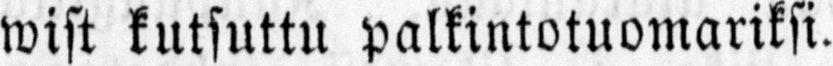wist kutsuttu palkintotuomariksi.
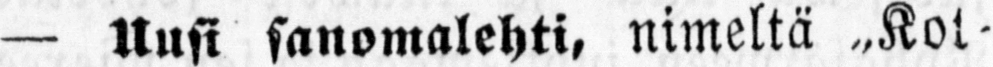— Uusi sanomalehti, nimeltä „Kot-
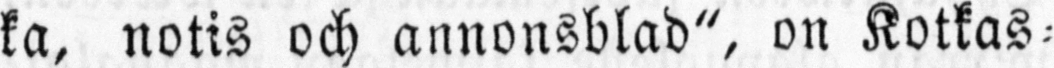ka, notis och annonsblad", on Kotkas-
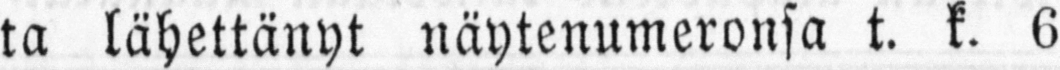ta lähettänyt näytenumeronsa t. k. 6
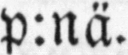p:nä.
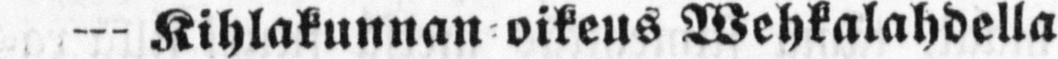— Kihlakunnan oikeus Wehkalahdella
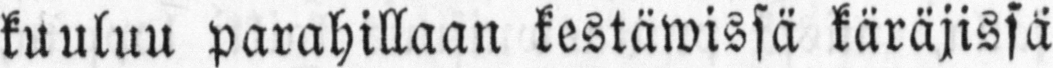kuuluu parahillaan kestäwissä käräjissä
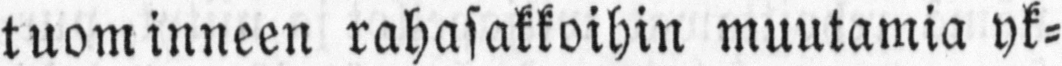tuominneen rahasakkoihin muutamia yk-
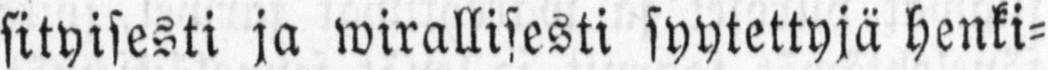sityisesti ja syytettyjä henki-
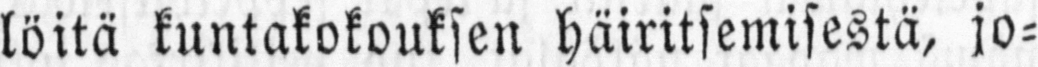löitä kuntakokouksen häiritsemisestä, jo-
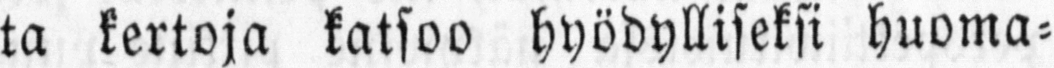ta kertoja katsoo hyödylliseksi huoma-
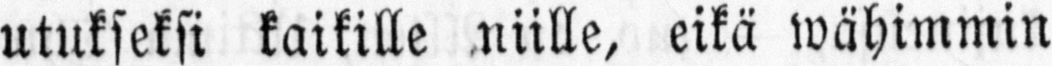utukseksi kaikille .niille, eikä wähimmin
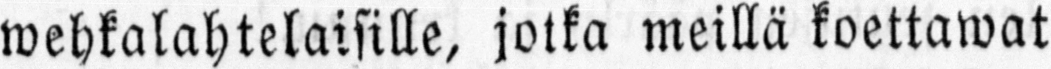wehkalahtelaisille, jotka meillä koettawat
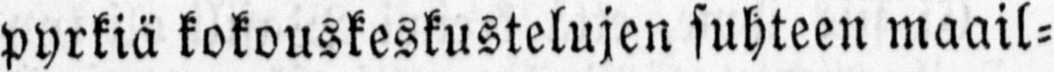pyrkiä kokouskeskustelujen suhteen maail-
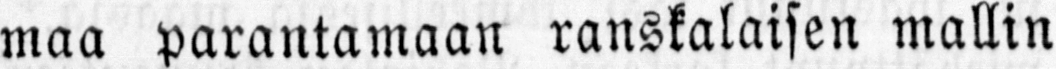maa parantamaan ranskalaisen mallin
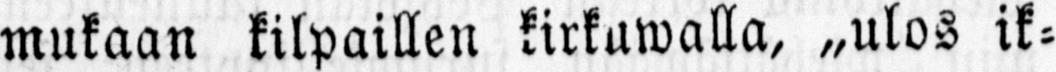mukaan kilpaillen kirkuwalla, „ulos ik-
